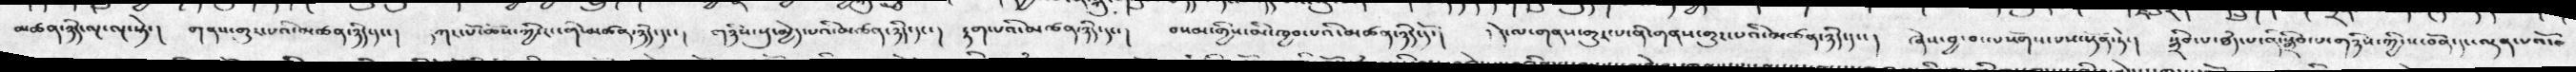མཚན་ཉིད་ལྔ་སྟེ་།   གནས་གྱུར་པའི་མཚན་ཉིད་དང་།   གང་པོ་ཆོས་ཀྱི་རང་གི་མཚན་ཉིད་དང་།   གཉིས་སུ་མྱེད་པའི་མཚན་ཉིད་དང་།  རྟག་པའི་མཚན་ཉིད་དང་།  བསམ་གྱིས་མི་ཁྱབ་པའི་མཚན་ཉིད་དོ་།   །  དེ་ལ་གནས་གྱུར་པ་ནི་གནས་གྱུར་པའི་མཚན་ཉིད་དང་།  ཞེས་བྱ་བ་ལསོགས་པས་སྟོན་ཏེ་།  སྒྲིབ་པ་ཐཾད་པ་ནི་སྒྲིབ་པ་གཉིས་གྱི་ས་བོན་དང་ལྡན་པའོ་
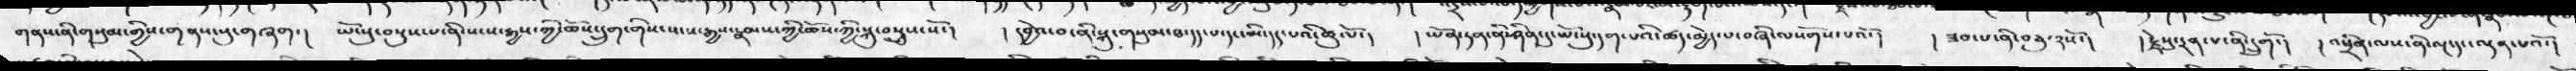གནས་ནི་གསུམ་གྱིས་གནས་སུ་གཞག་།  ཡོངསུ་བསྡུས་པ་ནི་སངས་རྒྱས་ཀྱི་ཆོས་དྲུག་གིས་སངས་རྒྱས་རྣམས་ཀྱི་ཆོས་ཀྱི་སྐུ་བསླུས་སོ་།   ། དབྱེའ་བ་ནི་སྐུ་གསུམ་ཐ་དད་པ་དང་མི་དད་པའི་ཚུལོ་།   །  ཡོན་ཏན་ནི་ཤིན་དུ་ཡོངསུ་དག་པའི་ཚད་མྱེད་པ་བཞི་ལསོགས་པའོ་།   ། ཟབ་པ་ནི་བཅུ་༢སོ་།   ། རྗེསུ་དྲན་པ་ནི་དྲུགོ་།   ། འཕྲིན་ལས་ནི་ལྔ་དང་ལྡན་པའོ་།
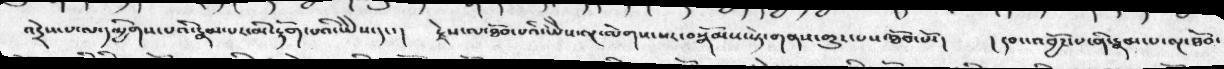འདྲེས་པ་ལ་དམྱིགས་པའི་རྣམ་པར་མི་རྟོག་པའི་ཡཻས་དང་།   རྗེས་ལ་ཐོབ་པའི་ཡཻས་ལྔ་ལེགས་པར་བསྒོམས་སྟེ་གནས་གྱུར་པས་ཐོབ་པོ་།  །དབང་འབྱོར་པ་ནི་རྣམ་པ་ལྔ་ཐོབ་
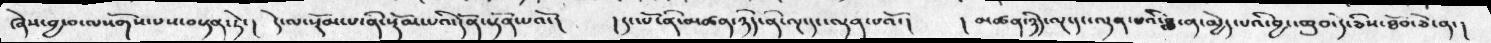ཞེས་བྱ་བ་ལསོགས་པས་བསྟན་ཏེ་།  དེ་ལ་སྡོམ་པ་ནི་སྡོམ་པའི་དོན་སྟོན་པའོ་།  །དང་པོ་ནི་མཚན་ཉིད་ནི་ལྔ་དང་ལྡན་པའོ་།  །མཚན་ཉིད་ལྔ་དང་ལྡན་པའི་བླ་ན་མྱེད་པའི་བྱང་ཆུབ་དེ་ཅིས་ཐོབ་ཅེ་ན་།
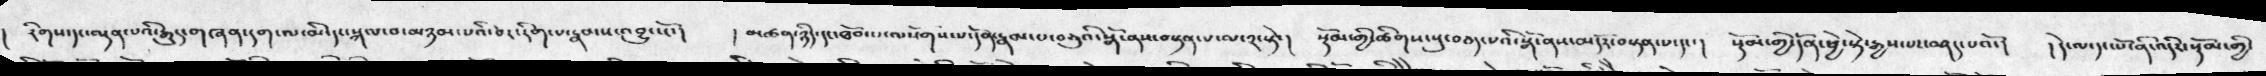།  རིགས་དང་ལྡན་པའི་རྒྱུད་གཞན་དག་ལ་མི་དང་སྐལ་བ་མཉམ་པའི་བར་རིག་པ་རྣམས་འབྱུང་ངོ་།  །མཚན་ཉིད་དང་ཐོབ་པ་ལསོགས་པ་དོན་རྣམ་པ་བཅུའི་སྒོ་ནས་བསྟན་པ་ལ་༢་སྟེ་།  སྡོམ་གྱི་ཚིགས་སུ་བཅད་པའི་སྒོ་ནས་མདོར་བསྟན་པ་དང་།  སྡོམ་གྱི་དོན་ཕྱེ་སྟེ་རྒྱས་པར་བཤད་པའོ་།  །དེ་ལ་དང་པོ་ནི་འདིར་སྡོམ་གྱི་
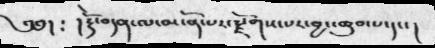༄༅།  ༴ །རྡོེ་བདན་ལ་མངོན་པ་རྫོགས་པར་བྱང་ཆུབ་པ་དང་།
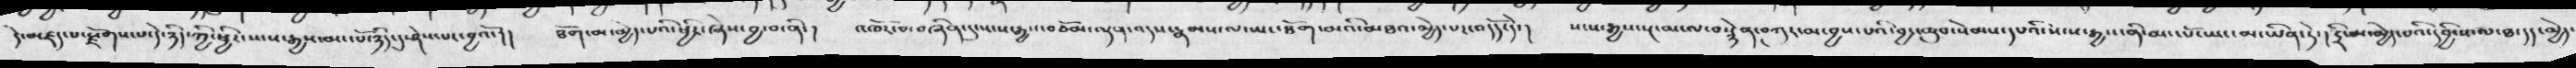དེ་མཛད་པ་རྫོགས་པ་དེ་ཉིད་ཀྱི་ཕྱིར་སངས་རྒྱས་མང་པོ་ཉིད་དུ་ཤེས་པར་བྱའོ་།།  ཐོག་མ་མྱེད་པའི་ཕྱིར་ཞེས་བྱ་བ་ནི་།. འཁོར་བ་བཞིན་དུ་སངས་རྒྱས་བཅོམ་ལྡན་འདས་རྣམ་ལ་ཡང་ཐོག་མའི་མཐའ་མྱེད་པར་འདོད་དེ་།  སངས་རྒྱས་སྔ་མ་ལ་བསྙེན་བཀུར་མ་བྱས་པའི་བྱང་ཆུབ་སེམས་དཔའི་སངས་རྒྱས་ནི་མང་པོ་ཡང་མ་ཡིན་ཏེ་། དྲི་མ་མྱེད་པའི་དབྱིངས་ལ་ཐ་དད་མྱེད་
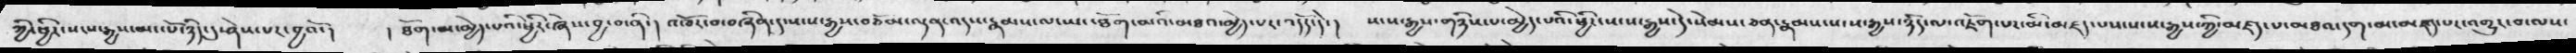ཀྱི་ཕྱིར་སངས་རྒྱས་མང་པོ་ཉིད་དུ་ཤེས་པར་བྱའོ་།  །ཐོག་མ་མྱེད་པའི་ཕྱིར་ཞེས་བྱ་བ་ནི་། འཁོར་བ་བཞིན་དུ་སངས་རྒྱས་བཅོམ་ལྡན་འདས་ལ་ཡང་ཐོག་མའི་མཐའ་མྱེད་པར་འདོད་དེ་།  སངས་རྒྱས་གཉིས་པ་མྱེད་པའི་ཕྱིར་སངས་རྒྱས་དེ་སེམས་ཅན་རྣམས་སངས་རྒྱས་ཉིད་ལ་འཇོག་པར་མི་མཛད་པས་སངས་རྒྱས་ཀྱི་མཛད་པ་མཐའ་དག་མ་མཛད་པར་འགྱུར་བ་ལས་
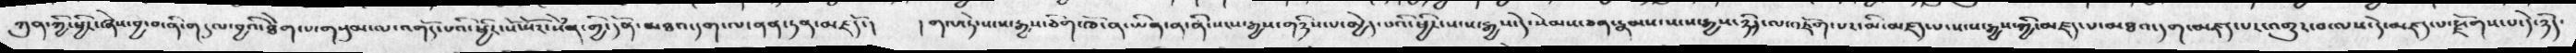ཀུན་ཀྱི་ཕྱིར་ཞེས་བྱ་བ་ནི་གདུལ་བྱའི་ཐེག་པ་གསུམ་ལ་འགོད་པའི་ཕྱིར་སོ་སོར་སེཾན་གྱི་དོན་མཐའ་དག་ལ་ནན་ཏན་མཛདོ་།  །གལ་ཏེ་སངས་རྒྱས་ཅིག་ཁོ་ན་ཡིན་ན་ནི་སངས་རྒྱས་གཉིས་པ་མྱེད་པའི་ཕྱིར་སངས་རྒྱས་དེ་སེམས་ཅན་རྣམས་སངས་རྒྱས་ཉིད་ལ་འཇོག་པར་མི་མཛད་པ་སངས་རྒྱས་ཀྱི་མཛད་པ་མཐའ་དག་མཛད་པར་འགྱུར་བ་ལས་དེ་མཛད་པ་རྫོགས་པ་དེ་ཉིད་
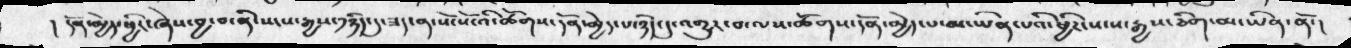། དོན་མྱེད་ཕྱིར་ཞེས་བྱ་བ་ནི་སངས་རྒྱས་༡ཉིད་དུ་ཟད་ན་སོ་སོ་འི་ཚོགས་དོན་མྱེད་པ་ཉིད་དུ་འགྱུར་བ་ལས་ཚོགས་དོན་མྱེད་པ་མ་ཡིན་པའི་ཕྱིར་སངས་རྒྱས་ཅིག་མ་ཡིན་ནོ་།
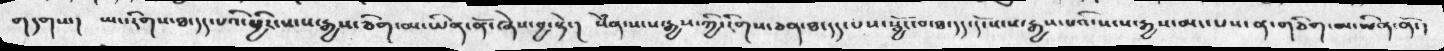གདགས་། ཡང་རིགས་ཐ་དད་པའི་ཕྱིར་སངས་རྒྱས་ཅིག་མ་ཡིན་ནོ་ཞེས་བྱ་སྟེ་།  སེཾན་སངས་རྒྱས་ཀྱི་རིགས་ཅན་ཐ་དད་པས་སྦྱོང་བ་ཐ་དད་དོ་སངས་རྒྱས་པའི་སངས་རྒྱས་མང་པས་ན་གཅིག་མ་ཡིན་ནོ་།
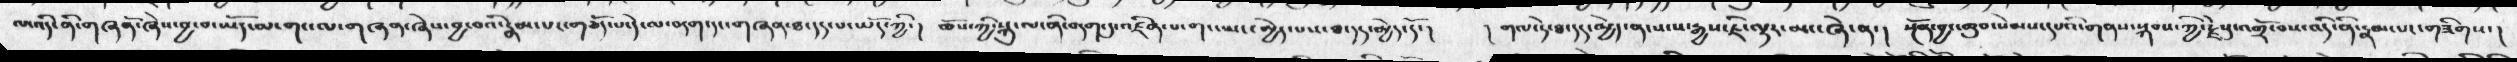ལ་འདི་ནི་གཞནོ་ཞེས་བྱ་བ་ཡོད་མ་གང་ལ་གཞན་ཞེས་བྱ་བའི་རྣམ་པར་གཅོད་པ་དེ་ལ་བདག་དང་གཞན་ཐ་དད་པ་ཡོད་ཀྱི་།  ཆོས་ཀྱི་སྐུ་ལ་ནི་བདག་དུ་འཛིན་པ་གང་ཡང་མྱེད་པས་ཐ་དད་མྱེད་དོ་།  ། གལ་ཏེ་ཐ་དད་མྱེད་ན་སངས་རྒྱས་ཇི་ལྟར་མང་ཞེ་ན་།  སྔོན་བྱང་ཆུབ་སེམས་དཔའི་གནས་སྐབས་ཀྱི་རྗེསུ་འགྲོ་བས་འདི་ནི་རྣམ་པར་གཟིགས་།
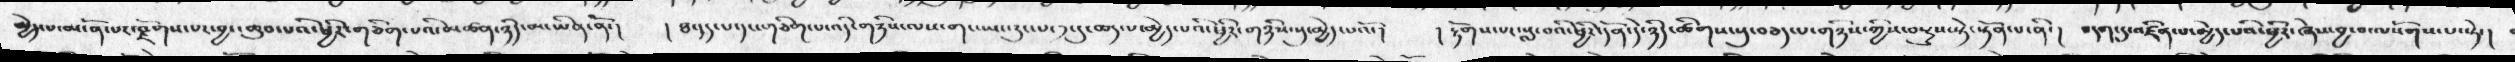སྤྱོད་པ་མངོན་པར་རྫོགས་པར་བྱང་ཆུབ་པའི་ཕྱིར་གཅིག་པའི་མཚན་ཉིད་མ་ཡིན་ནོ་།  ། ཐ་དད་པ་དང་གཅིག་པ་འདི་གཉིས་ལས་གང་ཡང་རུང་པ་༡་དུ་ཆད་པ་མྱེད་པའི་ཕྱིར་གཉིས་སུ་མྱེད་པའོ་།  ། རྟོགས་པར་སླ་བའི་ཕྱིར་དོན་དེ་ཉིད་ཚིགས་སུ་བཅད་པ་གཉིས་ཀྱི་བསྡུས་སྟེ་སྟོན་པ་ནི་།  བདག་དུ་འཛིན་པ་མྱེད་པའི་ཕྱིར་ཞེས་བྱ་བ་ལསོགས་པ་སྟེ་།
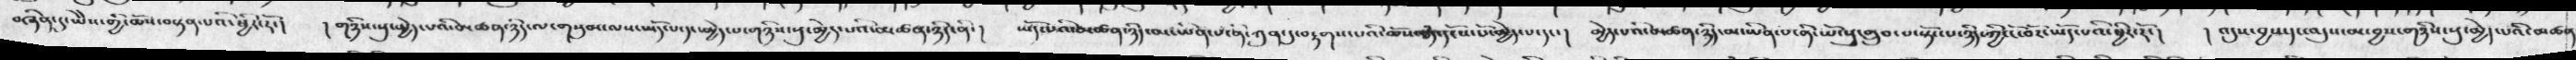བཞིན་དུ་ཡཻས་གྱི་ཆོས་བསྟན་པའི་ཕྱིར་རོ་།  །གཉིས་སུ་མྱེད་པའི་མཚན་ཉིད་ལ་གསུམ་ལས་ཡོད་པ་དང་མྱེད་པ་གཉིས་སུ་མྱེད་པའི་མཚན་ཉིད་ནི་།  ཡོད་པའི་མཚན་ཉིད་མ་ཡིན་པ་ནི་ཀུན་དུ་བརྟགས་པའི་ཆོས་ཐཾད་དངོས་པོ་མྱེད་པ་དང་།  མྱེད་པའི་མཚན་ཉིད་མ་ཡིན་པ་ནི་ཡོངསུ་གྲུབ་པ་སྟོང་པ་ཉིད་ཀྱི་ངོ་བོར་ཡོད་པའི་ཕྱིར་རོ་།  །འདུས་བྱས་དང་འདུས་མ་བྱས་གཉིས་སུ་མྱེད་པའི་མཚན་
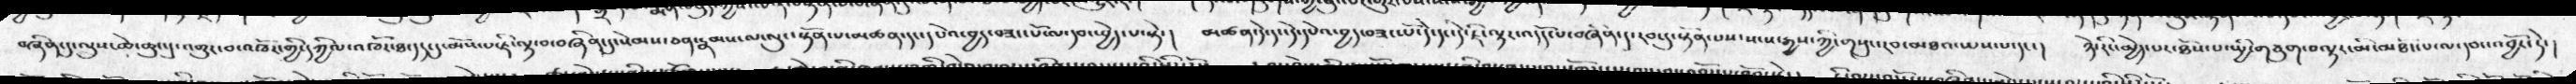བཞིན་དུ་ལུས་ཆེ་ཆུང་དུ་འགྱུར་བ་འཁོར་གྱི་དཀྱིལ་འཁོར་ཐ་དད་དུ་མོས་པ་ཇི་ལྟ་བ་བཞིན་དུ་སེམས་ཅན་རྣམས་ལ་ལུང་སྟོན་པ་མཚན་དང་དཔེའ་བྱད་བཟང་པོ་ལ་དབང་བྱེད་པ་སྟེ་།  མཚན་དེ་དང་དེ་དཔེའ་བྱད་བཟང་པོ་དེ་དང་དེ་ཇི་ལྟར་འདོད་པ་བཞིན་དུ་རབ་དུ་སྟོན་པས་སངས་རྒྱས་ཀྱི་གསུང་རབ་མཐའ་ཡས་པ་དང་།  ཉེ་རིང་མྱེད་པར་ཐོས་པ་སྤྱི་གཙུག་བལྟར་མི་མཐོང་པ་ལ་དམ་འབྱོར་ཏེ་།
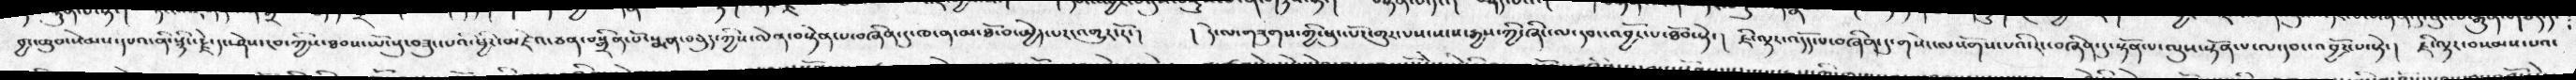བྱང་ཆུབ་སེམས་དཔའ་ནི་སྙིང་རྗེ་དང་ཤེས་རབ་ཀྱིས་ཐབས་ཡོངསུ་བཟུང་པའི་ཕྱིར་མཛེའ་ཅན་བསྒྲིན་པོ་སྨན་བཅུད་ཀྱིས་ལེན་བསྟེན་པ་བཞིན་དུ་ཁ་ན་མ་ཐོ་བ་མྱེད་པར་འགྱུར་རོ་།  ། དེ་ལ་གཟུགས་ཀྱི་ཕུང་པོར་གྱུར་པས་སངས་རྒྱས་ཀྱི་ཞིང་ལ་དབང་འབྱོར་པ་ཐོབ་སྟེ་།  ཇི་ལྟར་འདོད་པ་བཞིན་དུ་གསེང་ལསོགས་པའི་རང་བཞིན་དུ་སྟོན་པ་ལུས་སྟོན་པ་ལ་དབང་འབྱོར་པ་སྟེ་།  ཇི་ལྟར་བསམས་པའ་
